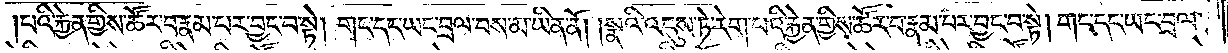པའི་རྐྱེན་གྱིས་ཚོར་བ་རྣམ་པར་བྱང་བ་སྟེ། གང་དང་ཡང་བྲལ་བས་མ་ཡིན་ནོ། །སྣའི་འདུས་ཏེ་རེག་པའི་རྐྱེན་གྱིས་ཚོར་བ་རྣམ་པར་བྱང་བ་སྟེ། གང་དང་ཡང་བྲལ་
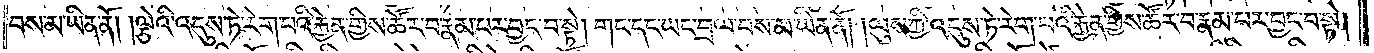བས་མ་ཡིན་ནོ། །ལྕེའི་འདུས་ཏེ་རེག་པའི་རྐྱེན་གྱིས་ཚོར་བ་རྣམ་པར་བྱང་བ་སྟེ། གང་དང་ཡང་བྲལ་བས་མ་ཡིན་ནོ། །ལུས་ཀྱི་འདུས་ཏེ་རེག་པའི་རྐྱེན་གྱིས་ཚོར་བ་རྣམ་པར་བྱང་བ་སྟེ།
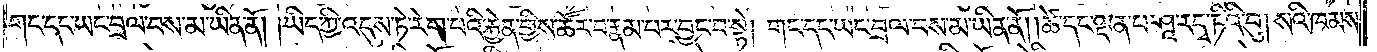གང་དང་ཡང་བྲལ་བས་མ་ཡིན་ནོ། །ཡིད་ཀྱི་འདུས་ཏེ་རེག་པའི་རྐྱེན་གྱིས་ཚོར་བ་རྣམ་པར་བྱང་བ་སྟེ། གང་དང་ཡང་བྲལ་བས་མ་ཡིན་ནོ། །ཚེ་དང་ལྡན་པ་ཤཱ་ར་དྭ་ཏིའི་བུ། སའི་ཁམས་
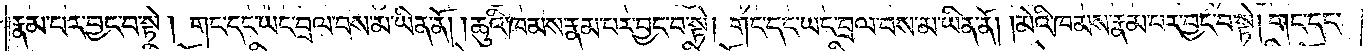རྣམ་པར་བྱང་བ་སྟེ། གང་དང་ཡང་བྲལ་བས་མ་ཡིན་ནོ། །ཆུའི་ཁམས་རྣམ་པར་བྱང་བ་སྟེ། གང་དང་ཡང་བྲལ་བས་མ་ཡིན་ནོ། །མེའི་ཁམས་རྣམ་པར་བྱང་བ་སྟེ། གང་དང་
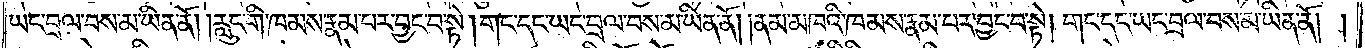ཡང་བྲལ་བས་མ་ཡིན་ནོ། །རླུང་གི་ཁམས་རྣམ་པར་བྱང་བ་སྟེ། གང་དང་ཡང་བྲལ་བས་མ་ཡིན་ནོ། །ནམ་མཁའི་ཁམས་རྣམ་པར་བྱང་བ་སྟེ། གང་དང་ཡང་བྲལ་བས་མ་ཡིན་ནོ། །
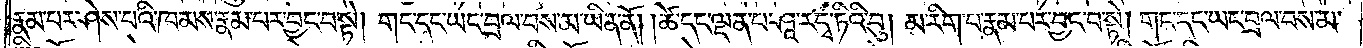རྣམ་པར་ཤེས་པའི་ཁམས་རྣམ་པར་བྱང་བ་སྟེ། གང་དང་ཡང་བྲལ་བས་མ་ཡིན་ནོ། །ཚེ་དང་ལྡན་པ་ཤཱ་ར་དྭ་ཏིའི་བུ། མ་རིག་པ་རྣམ་པར་བྱང་བ་སྟེ། གང་དང་ཡང་བྲལ་བས་མ་
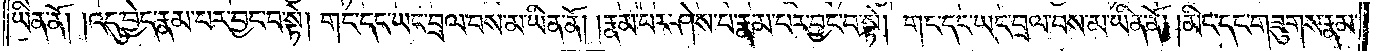ཡིན་ནོ། །འདུ་བྱེད་རྣམ་པར་བྱང་བ་སྟེ། གང་དང་ཡང་བྲལ་བས་མ་ཡིན་ནོ། །རྣམ་པར་ཤེས་པ་རྣམ་པར་བྱང་བ་སྟེ། གང་དང་ཡང་བྲལ་བས་མ་ཡིན་ནོ། །མིང་དང་གཟུགས་རྣམ་
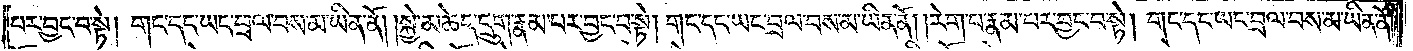པར་བྱང་བ་སྟེ། གང་དང་ཡང་བྲལ་བས་མ་ཡིན་ནོ། །སྐྱེ་མཆེད་དྲུག་རྣམ་པར་བྱང་བ་སྟེ། གང་དང་ཡང་བྲལ་བས་མ་ཡིན་ནོ། །རེག་པ་རྣམ་པར་བྱང་བ་སྟེ། གང་དང་ཡང་བྲལ་བས་མ་ཡིན་ནོ། །
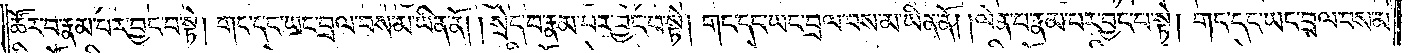ཚོར་བ་རྣམ་པར་བྱང་བ་སྟེ། གང་དང་ཡང་བྲལ་བས་མ་ཡིན་ནོ། །སྲེད་པ་རྣམ་པར་བྱང་བ་སྟེ། གང་དང་ཡང་བྲལ་བས་མ་ཡིན་ནོ། །ལེན་པ་རྣམ་པར་བྱང་བ་སྟེ། གང་དང་ཡང་བྲལ་བས་མ་
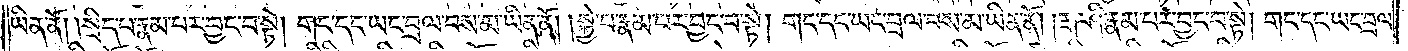ཡིན་ནོ། སྲིད་པ་རྣམ་པར་བྱང་བ་སྟེ། གང་དང་ཡང་བྲལ་བས་མ་ཡིན་ནོ། །སྐྱེ་བ་རྣམ་པར་བྱང་བ་སྟེ། གང་དང་ཡང་བྲལ་བས་མ་ཡིན་ནོ། །རྒ་ཤི་རྣམ་པར་བྱང་བ་སྟེ། གང་དང་ཡང་བྲལ་
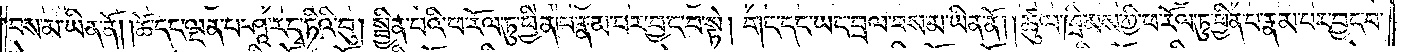བས་མ་ཡིན་ནོ། །ཚེ་དང་ལྡན་པ་ཤཱ་ར་དྭ་ཏིའི་བུ། སྦྱིན་པའི་ཕ་རོལ་ཏུ་ཕྱིན་པ་རྣམ་པར་བྱང་བ་སྟེ། གང་དང་ཡང་བྲལ་བས་མ་ཡིན་ནོ། །ཚུལ་ཁྲིམས་ཀྱི་ཕ་རོལ་ཏུ་ཕྱིན་པ་རྣམ་པར་བྱང་བ་
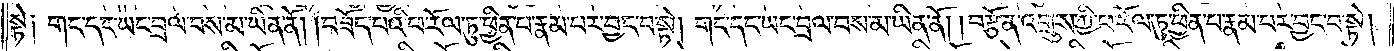སྟེ། གང་དང་ཡང་བྲལ་བས་མ་ཡིན་ནོ། །བཟོད་པའི་ཕ་རོལ་ཏུ་ཕྱིན་པ་རྣམ་པར་བྱང་བ་སྟེ། གང་དང་ཡང་བྲལ་བས་མ་ཡིན་ནོ། །བརྩོན་འགྲུས་ཀྱི་ཕ་རོལ་ཏུ་ཕྱིན་པ་རྣམ་པར་བྱང་བ་སྟེ།
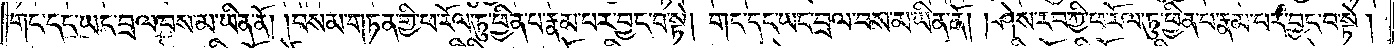གང་དང་ཡང་བྲལ་བས་མ་ཡིན་ནོ། །བསམ་གཏན་གྱི་ཕ་རོལ་ཏུ་ཕྱིན་པ་རྣམ་པར་བྱང་བ་སྟེ། གང་དང་ཡང་བྲལ་བས་མ་ཡིན་ནོ། །ཤེས་རབ་ཀྱི་ཕ་རོལ་ཏུ་ཕྱིན་པ་རྣམ་པར་བྱང་བ་སྟེ།
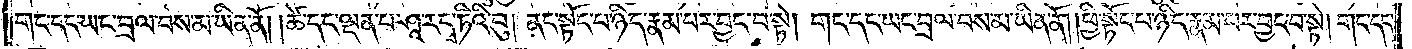གང་དང་ཡང་བྲལ་བས་མ་ཡིན་ནོ། །ཚེ་དང་ལྡན་པ་ཤཱ་ར་དྭ་ཏིའི་བུ། ནང་སྟོང་པ་ཉིད་རྣམ་པར་བྱང་བ་སྟེ། གང་དང་ཡང་བྲལ་བས་མ་ཡིན་ནོ། །ཕྱི་སྟོང་པ་ཉིད་རྣམ་པར་བྱང་བ་སྟེ། གང་དང་
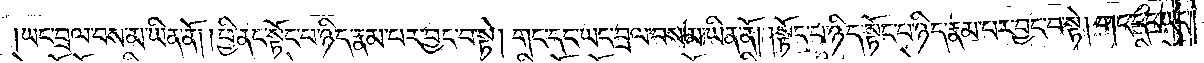ཡང་བྲལ་བས་མ་ཡིན་ནོ། །ཕྱི་ནང་སྟོང་པ་ཉིད་རྣམ་པར་བྱང་བ་སྟེ། གང་དང་ཡང་བྲལ་བས་མ་ཡིན་ནོ། །སྟོང་པ་ཉིད་སྟོང་པ་ཉིད་རྣམ་པར་བྱང་བ་སྟེ། གང་དང་ཡང་
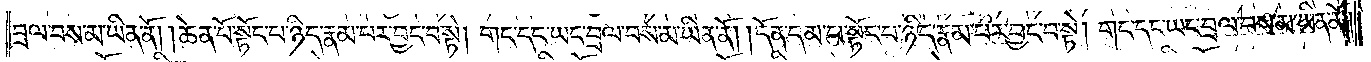བྲལ་བས་མ་ཡིན་ནོ། །ཆེན་པོ་སྟོང་པ་ཉིད་རྣམ་པར་བྱང་བ་སྟེ། གང་དང་ཡང་བྲལ་བས་མ་ཡིན་ནོ། །དོན་དམ་པ་སྟོང་པ་ཉིད་རྣམ་པར་བྱང་བ་སྟེ། གང་དང་ཡང་བྲལ་བས་མ་ཡིན་ནོ། །
